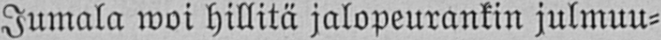Jumala woi hillitä jalopeurankin julmuu-
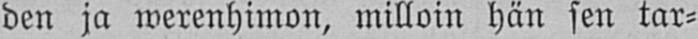den ja werenhimon, milloin hän sen tar-
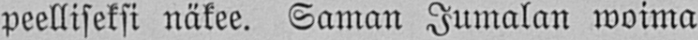peelliseksi näkee. Saman Jumalan woima
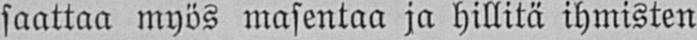saattaa myös masentaa ja hillitä ihmisten
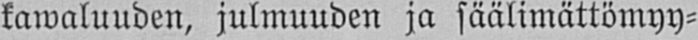kawaluuden, julmuuden ja säälimättömyy-
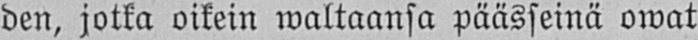den, jotka oikein waltaansa päässeinä owat
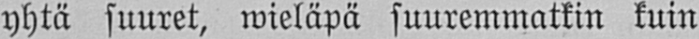yhtä suuret, wieläpä suuremmatkin kuin
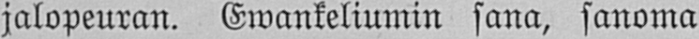jalopeuran. Ewankeliumin sana, sanoma
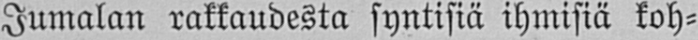Jumalan rakkaudesta syntisiä ihmisiä koh-
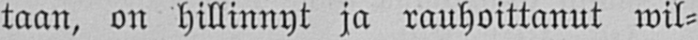taan, on hillinnyt ja rauhoittanut wil-
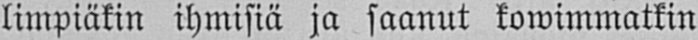limpiäkin ihmisiä ja saanut kowimmatkin
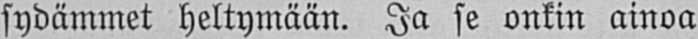sydämmet heltymään. Ja se onkin ainoa
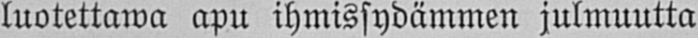luotettawa apu ihmissydämmen julmuutta
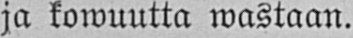ja kowuutta wastaan.
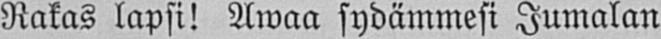Rakas lapsi! Awaa sydämmesi Jumalan
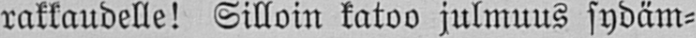rakkaudelle! Silloin katoo julmuus sydäm-
